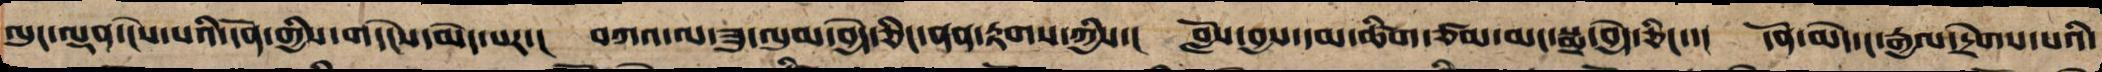ལུང་ལྡན་ངེས་པའི་དོན་གྱི་གདེང་མེད་པར་། བཀའ་ལ་ཟུ་ལུམ་བྱེད་ཅིང་ནན་བརྟགས་ཀྱིས་། བློས་བྱས་དམ་ཚིག་ཙམ་མང་སྨྲ་བྱེད་ཅིང་། དོན་མེད་ང་རྒྱལ་དྲེགས་པའི་
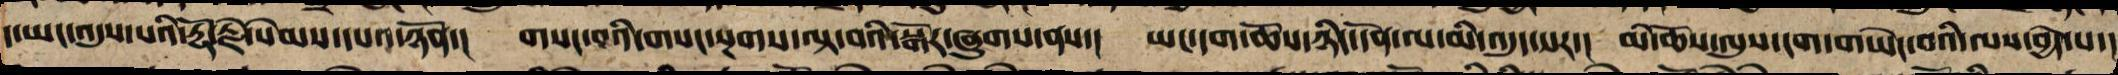ད་ཡང་འདུས་པའི་རྡོ་རྗེ་སེམས་དཔའ་ཉོན་། གསང་བའི་གསང་སྔགས་ལྟ་བའི་སྒོར་ཞུགས་ནས་། ཡང་དག་ཆོས་ཉིད་དོན་ལ་མི་འདུད་པར་། མི་ཆོས་ལུས་ངག་གཡེང་བའི་ལས་བྱེད་པ་།
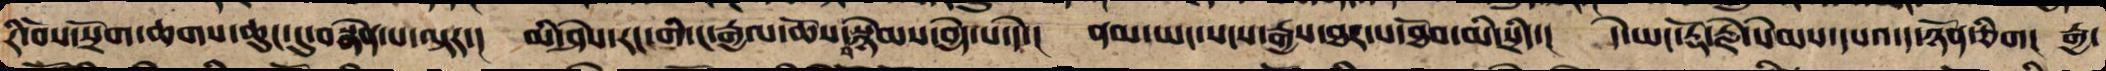རི་བོས་སྲོག་ཆགས་ཆུང་ངུ་མནན་པ་ལྟར་། མི་ཤེས་རང་གི་ཆོས་བསྙེམས་བྱེད་པ་དེ་། ནམ་ཡང་སངས་རྒྱས་ཐར་པ་ཐོབ་མི་སྲིད་། དེ་ཡང་རྡོ་རྗེ་སེམས་དཔའ་ད་ཉོན་ཅིག། རྒྱ་
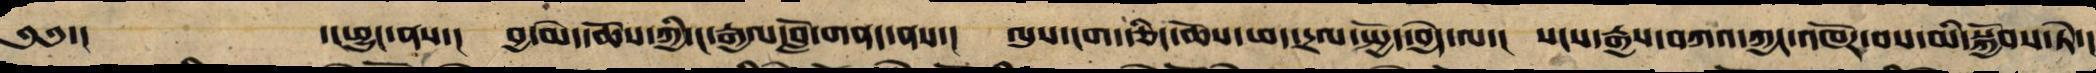༄༅་།  ་།ཕྱུང་ནས་། བྱར་མེད་ཆོས་ཀྱིས་ང་རྒྱལ་བློ་སྐྱེས་ནས་། ལུས་ངག་རྩིང་ཆོས་ཕད་དྲལ་སྤྱོད་བྱེད་ལ་། སངས་རྒྱས་བཀས་ཀྱང་འཁོར་བར་མི་སྐྱོ་ཏེ་།
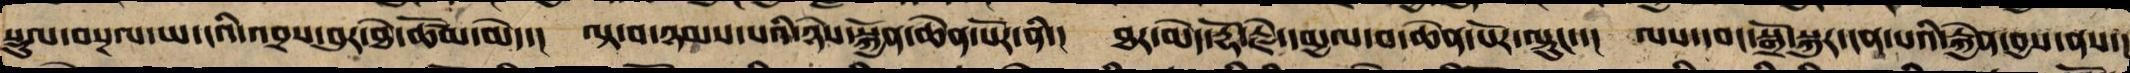སྡུག་བསྔལ་ཡ་ངའི་འབྲས་བུར་ཐེ་ཚོམ་མེད་། ལྟ་བ་ཉམས་པའི་ཉེས་སྐྱོན་ཆེན་པོ་ནི།་ ཐར་མེད་རྡོ་རྗེ་དམྱལ་བ་ཆེན་པོར་ལྟུང་། །ལས་དབང་སྒྲོ་སྐུར་ངན་པས་རྐྱེན་བྱས་ནས། །
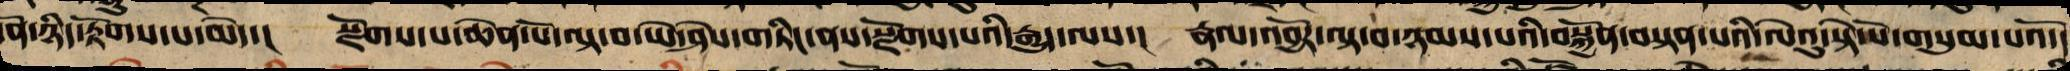ན་ཉིད་རྟོགས་པ་མེད་། སྫོགས་པ་ཆེན་པོ་ལྟ་བ་ཡེ་ཤེས་གཏིང་ནས་སྫོགས་པའི་རྒྱུད་ལས་། རྣལ་འབྱོར་ལྟ་བ་ཉམས་པའི་སྐྱོན་བསྟན་པའི་ལེའུ་སྟེ་སོ་གསུམ་པའོ་།།
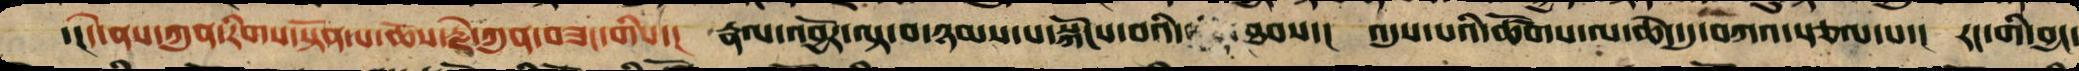།་།དེ་ནས་ཀུན་རིག་སྟོན་པ་ཆོས་རྗེ་ཀུན་བཟང་གིས་། རྣལ་འབྱོར་ལྟ་བ་ཉམས་པ་སྐོང་བའི་ཐབས་། འདུས་པའི་ཚོགས་ལ་ཆེད་དུ་བཀའ་སྩལ་པ་། རང་གི་བྱང་
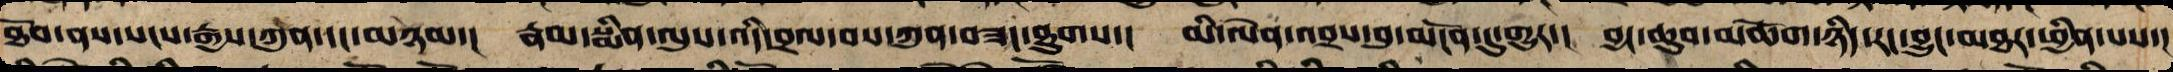ཐོབ་ནས་སངས་རྒྱས་ཀུན་དང་མཉམ་། རྣམ་སྨིན་ལུས་འདི་བྲལ་ནས་ཀུན་བཟང་ཐུགས་། མི་ལེན་འབྲས་བུ་མངོན་དུ་གྱུར་། བྱང་ཆུབ་མཆོག་ཉིད་རང་བྱུང་མཐར་ཕྱིན་པས་།
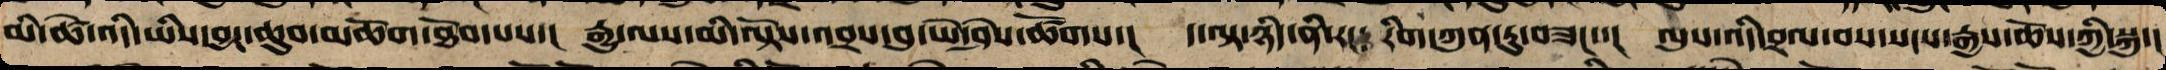མི་ཚེ་འདི་ཡིས་བྱང་ཆུབ་མཆོག་ཐོབ་པས་། རྒྱུ་ལས་མི་ལྟོས་འབྲས་བུ་ཡེ་ཤེས་ཚོགས་། ད་ལྟ་ཉིད་ནི་རང་རིག་ཀུན་ཏུ་བཟང་་། ལུས་འདི་བྲལ་བས་སངས་རྒྱས་ཆོས་ཀྱི་སྐུ་།
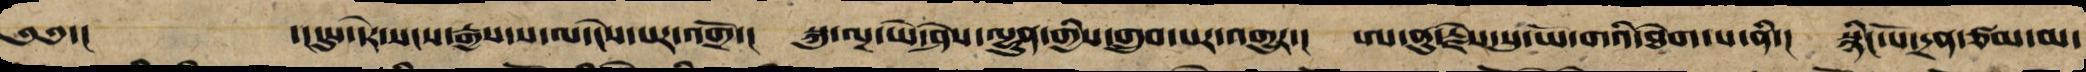༄༅་།  ་།དུས་དེར་སངས་རྒྱས་ས་ལ་ངེས་པར་འགྲོ་། སྐུ་ལྔ་ཡེ་ནས་ལྷུན་གྱིས་གྲུབ་པར་འགྱུར་། ཨ་ནུ་རྗེས་སུ་ཡོ་གའི་ཐེག་པ་ནི་། སྙིང་པོ་དྲན་ཙམ་མ་
